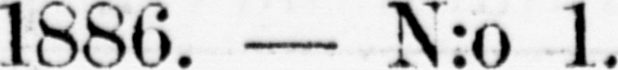1886. — N:o 1.
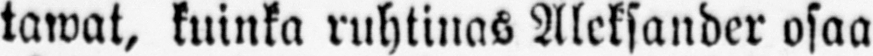tawat, kuinka ruhtinas Aleksander osaa
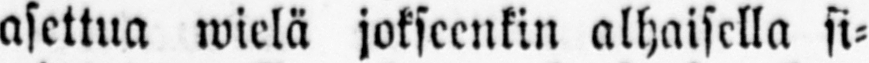asettua wielä jokseenkin alhaisella si-
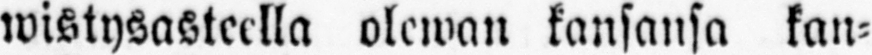wistysasteella olewan kansansa kan-
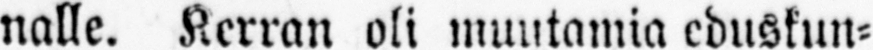nalle. Kerran oli muutamia eduskun-
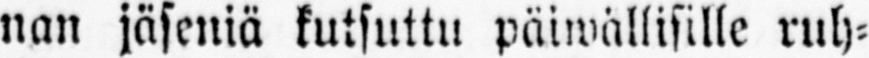nan jäseniä kutsuttu päiwällisille ruh-
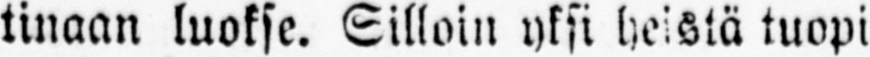tinaan luokse. Silloin yksi heistä tuopi
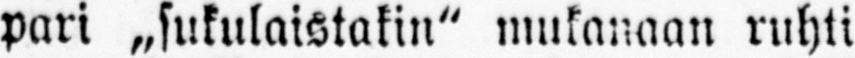pari „sukulaistakin" mukanaan ruhti
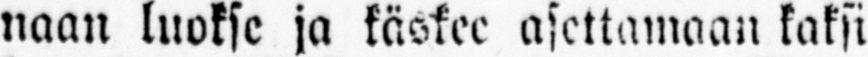naan luokse ja käskee asettamaan kaksi
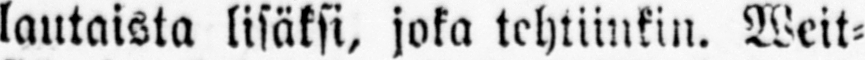lautaista lisäksi, joka tehtiinkin. Weit-
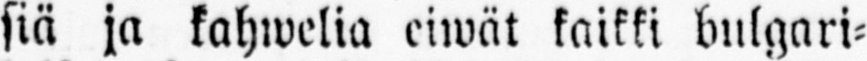siä ja kahwelia eiwät kaikki bulgari-
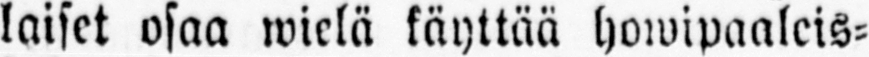laiset osaa wielä käyttää howipaaleis-
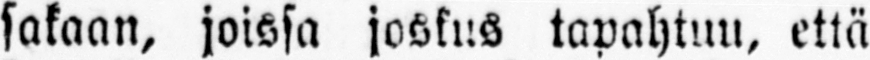sakaan, joissa joskus tapahtuu, että
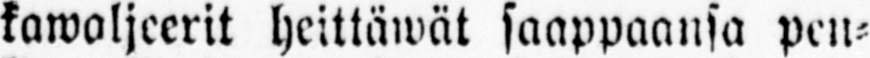kawaljeerit heittäwät saappaansa pen-
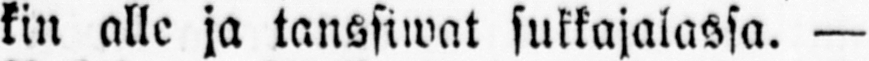kin alle ja tanssiwat sukkajalassa. —
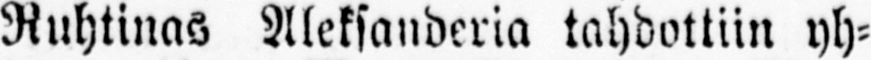Ruhtinas Aleksanderia tahdottiin yh-
